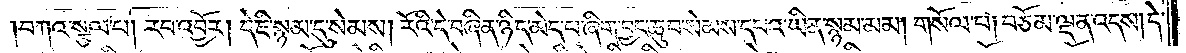བཀའ་སྩལ་པ། རབ་འབྱོར། དེ་ཇི་སྙམ་དུ་སེམས། རོའི་དེ་བཞིན་ཉིད་མེད་པ་ཞིག་བྱང་ཆུབ་སེམས་དཔའ་ཡིན་སྙམ་མམ། གསོལ་པ། བཅོམ་ལྡན་འདས། དེ་
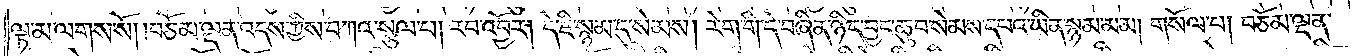ལྟ་མ་ལགས་སོ། །བཅོམ་ལྡན་འདས་ཀྱིས་བཀའ་སྩལ་པ། རབ་འབྱོར། དེ་ཇི་སྙམ་དུ་སེམས། རེག་གི་དེ་བཞིན་ཉིད་བྱང་ཆུབ་སེམས་དཔའ་ཡིན་སྙམ་མམ། གསོལ་པ། བཅོམ་ལྡན་
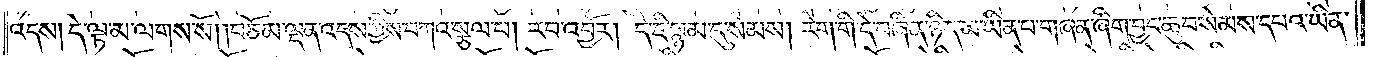འདས། དེ་ལྟ་མ་ལགས་སོ། །བཅོམ་ལྡན་འདས་ཀྱིས་བཀའ་སྩལ་པ། རབ་འབྱོར། དེ་ཇི་སྙམ་དུ་སེམས། རེག་གི་དེ་བཞིན་ཉིད་མ་ཡིན་པ་གཞན་ཞིག་བྱང་ཆུབ་སེམས་དཔའ་ཡིན་
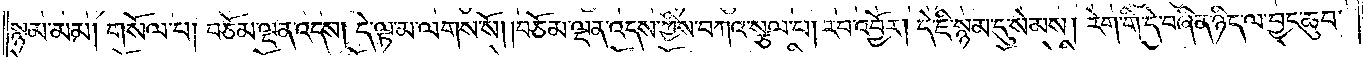སྙམ་མམ། གསོལ་པ༑ བཅོམ་ལྡན་འདས། དེ་ལྟ་མ་ལགས་སོ། །བཅོམ་ལྡན་འདས་ཀྱིས་བཀའ་སྩལ་པ། རབ་འབྱོར། དེ་ཇི་སྙམ་དུ་སེམས། རེག་གི་དེ་བཞིན་ཉིད་ལ་བྱང་ཆུབ་
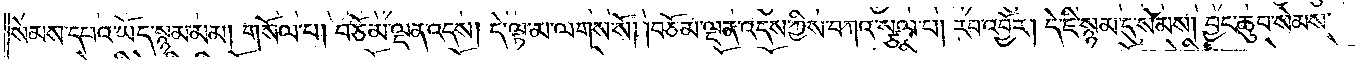སེམས་དཔའ་ཡོད་སྙམ་མམ། གསོལ་པ། བཅོམ་ལྡན་འདས། དེ་ལྟ་མ་ལགས་སོ། །བཅོམ་ལྡན་འདས་ཀྱིས་བཀའ་སྩལ་པ། རབ་འབྱོར། དེ་ཇི་སྙམ་དུ་སེམས། བྱང་ཆུབ་སེམས་
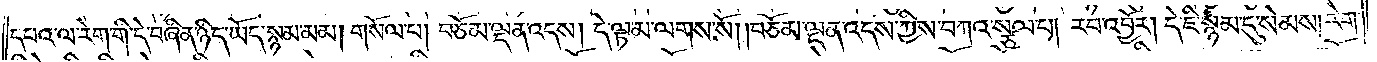དཔའ་ལ་རེག་གི་དེ་བཞིན་ཉིད་ཡོད་སྙམ་མམ། གསོལ་པ། བཅོམ་ལྡན་འདས། དེ་ལྟ་མ་ལགས་སོ། །བཅོམ་ལྡན་འདས་ཀྱིས་བཀའ་སྩལ་པ། རབ་འབྱོར། དེ་ཇི་སྙམ་དུ་སེམས། རེག་
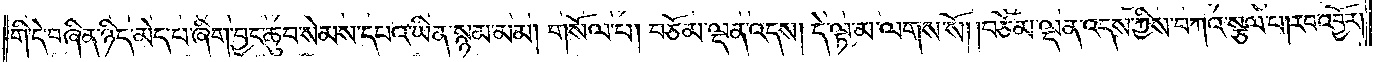གི་དེ་བཞིན་ཉིད་མེད་པ་ཞིག་བྱང་ཆུབ་སེམས་དཔའ་ཡིན་སྙམ་མམ། གསོལ་པ། བཅོམ་ལྡན་འདས། དེ་ལྟ་མ་ལགས་སོ། །བཅོམ་ལྡན་འདས་ཀྱིས་བཀའ་སྩལ་པ། རབ་འབྱོར།
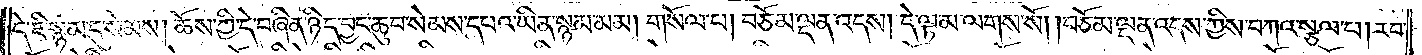དེ་ཇི་སྙམ་དུ་སེམས། ཆོས་ཀྱི་དེ་བཞིན་ཉིད་བྱང་ཆུབ་སེམས་དཔའ་ཡིན་སྙམ་མམ། གསོལ་པ། བཅོམ་ལྡན་འདས། དེ་ལྟ་མ་ལགས་སོ། །བཅོམ་ལྡན་འདས་ཀྱིས་བཀའ་སྩལ་པ། རབ་
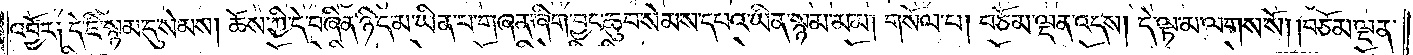འབྱོར༑ དེ་ཇི་སྙམ་དུ་སེམས། ཆོས་ཀྱི་དེ་བཞིན་ཉིད་མ་ཡིན་པ་གཞན་ཞིག་བྱང་ཆུབ་སེམས་དཔའ་ཡིན་སྙམ་མམ། གསོལ་པ། བཅོམ་ལྡན་འདས། དེ་ལྟ་མ་ལགས་སོ། །བཅོམ་ལྡན་
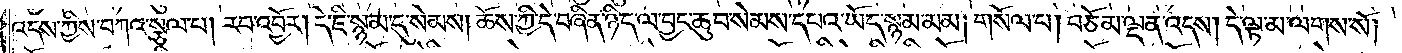འདས་ཀྱིས་བཀའ་སྩལ་པ། རབ་འབྱོར། དེ་ཇི་སྙམ་དུ་སེམས། ཆོས་ཀྱི་དེ་བཞིན་ཉིད་ལ་བྱང་ཆུབ་སེམས་དཔའ་ཡོད་སྙམ་མམ། གསོལ་པ། བཅོམ་ལྡན་འདས། དེ་ལྟ་མ་ལགས་སོ།
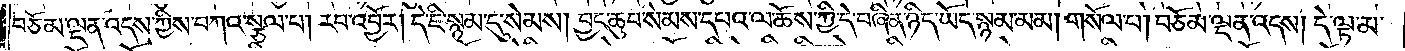བཅོམ་ལྡན་འདས་ཀྱིས་བཀའ་སྩལ་པ། རབ་འབྱོར། དེ་ཇི་སྙམ་དུ་སེམས། བྱང་ཆུབ་སེམས་དཔའ་ལ་ཆོས་ཀྱི་དེ་བཞིན་ཉིད་ཡོད་སྙམ་མམ། གསོལ་པ། བཅོམ་ལྡན་འདས། དེ་ལྟ་མ་
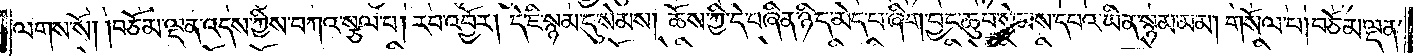ལགས་སོ། །བཅོམ་ལྡན་འདས་ཀྱིས་བཀའ་སྩལ་པ། རབ་འབྱོར། དེ་ཇི་སྙམ་དུ་སེམས། ཆོས་ཀྱི་དེ་བཞིན་ཉིད་མེད་པ་ཞིག་བྱང་ཆུབ་སེམས་དཔའ་ཡིན་སྙམ་མམ། གསོལ་པ། བཅོམ་ལྡན་
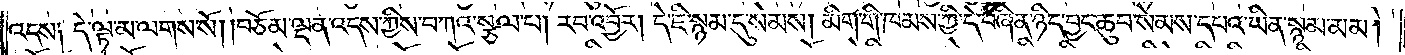འདས༑ དེ་ལྟ་མ་ལགས་སོ། །བཅོམ་ལྡན་འདས་ཀྱིས་བཀའ་སྩལ་པ། རབ་འབྱོར། དེ་ཇི་སྙམ་དུ་སེམས། མིག་གི་ཁམས་ཀྱི་དེ་བཞིན་ཉིད་བྱང་ཆུབ་སེམས་དཔའ་ཡིན་སྙམ་མམ་།
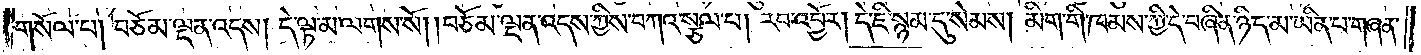གསོལ་པ། བཅོམ་ལྡན་འདས། དེ་ལྟ་མ་ལགས་སོ། །བཅོམ་ལྡན་འདས་ཀྱིས་བཀའ་སྩལ་པ། རབ་འབྱོར། དེ་ཇི་སྙམ་དུ་སེམས། མིག་གི་ཁམས་ཀྱི་དེ་བཞིན་ཉིད་མ་ཡིན་པ་གཞན་
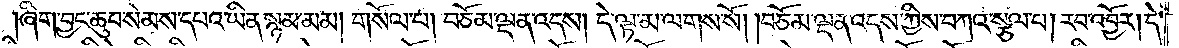ཞིག་བྱང་ཆུབ་སེམས་དཔའ་ཡིན་སྙམ་མམ། གསོལ་པ། བཅོམ་ལྡན་འདས། དེ་ལྟ་མ་ལགས་སོ། །བཅོམ་ལྡན་འདས་ཀྱིས་བཀའ་སྩལ་པ། རབ་འབྱོར། དེ་
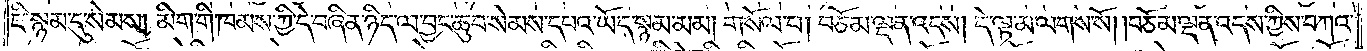ཇི་སྙམ་དུ་སེམས། མིག་གི་ཁམས་ཀྱི་དེ་བཞིན་ཉིད་ལ་བྱང་ཆུབ་སེམས་དཔའ་ཡོད་སྙམ་མམ། གསོལ་པ། བཅོམ་ལྡན་འདས། དེ་ལྟ་མ་ལགས་སོ། །བཅོམ་ལྡན་འདས་ཀྱིས་བཀའ་
